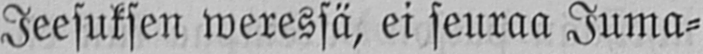Jeesuksen weressä, ei seuraa Juma-
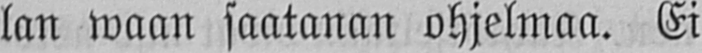lan waan saatanan ohjelmaa. Ei
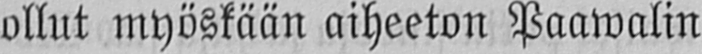ollut myöskään aiheeton Paawalin
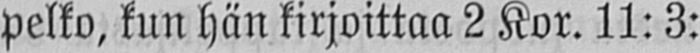pelko, kun hän kirjoittaa 2 Kor. 11:3:
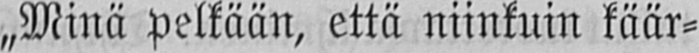„Minä pelkään, että niinkuin käär-
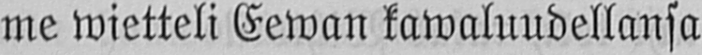me wietteli Eewan kawaluudellansa
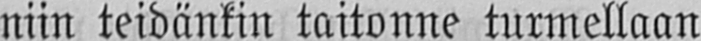niin teidänkin taitonne turmellaan
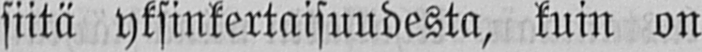siitä yksinkertaisuudesta, kuin on
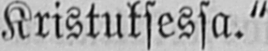Kristuksessa."
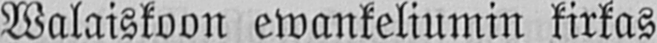Walaiskoon ewankeliumin kirkas
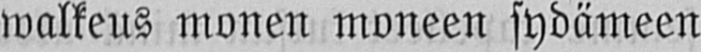walkeus monen moneen sydämeen
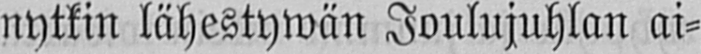nytkin lähestywän Joulujuhlan ai-
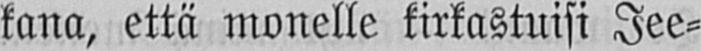kana, että monelle kirkastuisi Jee-
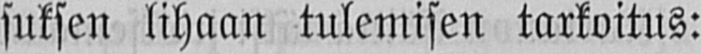suksen lihaan tulemisen tarkoitus:
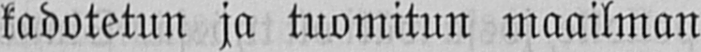kadotetun ja tuomitun maailman
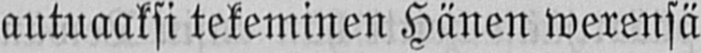autuaaksi tekeminen Hänen werensä
